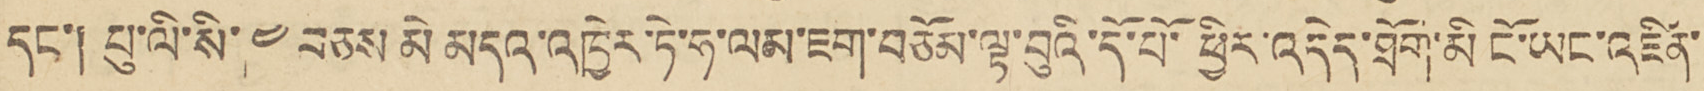དང་། པུ་ལི་སི་ ༤ བཅས མི མདའ་འཁྱེར་ཏེ་ཧ་ལམ་ཇག་བཅོམ་ལྟ་བུའི་དོ་པོ་ཕྱིར་འདེད་ཐོག་མི ངོ་ཡང་འཛིན་
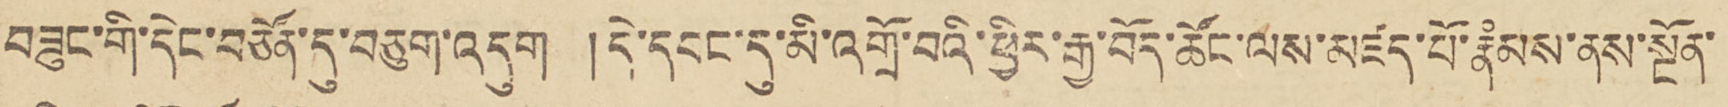བཟུང་གི་དེང་བཙོན་དུ་བཅུག་འདུག །དེ་དབང་དུ་མི་འགྲོ་བའི་རྒྱ་བོད་ཚོང་ལས་མཛད་པོ་རྣཾམས་ནས་སྔོན་
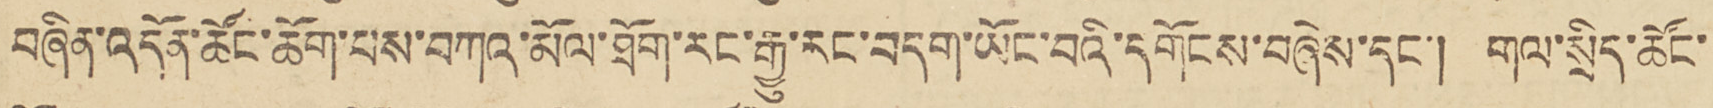བཞིན་འདོན་ཚོང་ཆོག་པས་བཀའ་མོལ་ཐོག་རང་རྒྱུ་རང་བདག་ཡོང་བའི་དགོངས་བཞེས་དང་། གལ་སྲིད་ཚོང་
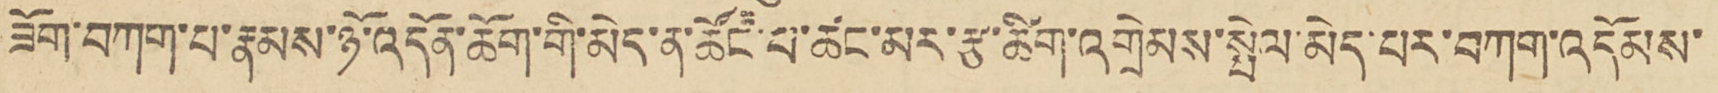ཟོག་བཀག་པ་རྣམས་ཉོ་འདོན་ཆོག་གི་མེད་ན་ཚོང་པ་ཚང་མར་རྩ་ཚིག་འགྲེམས་སྤེལ་མེད་པར་བཀག་འདོམས་
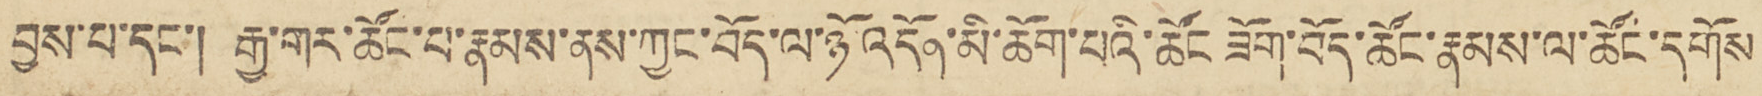བྱས་པ་དང་། རྒྱ་གར་ཚོང་པ་རྣམས་ནས་ཀྱང་བོད་ལ་འདོན་མི་ཆོག་པའི་ཚོང ཟོག་བོད་ཚོང་རྣམས་ལ་ཚོང་དགོས
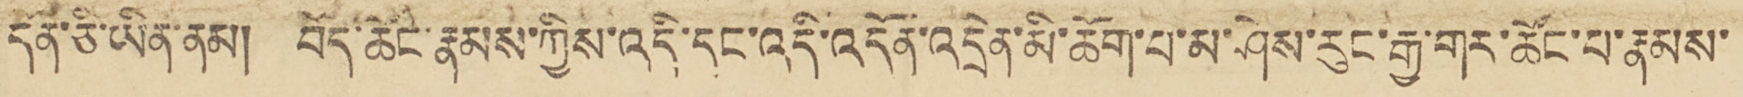དོན་ཅི་ཡིན་ནམ། བོད་ཚོང་རྣམས་ཀྱིས་འདི་དང་འདི་འདོན་འདྲེན་མི་ཆོག་པ་མ་ཤེས་རུང་རྒྱ་གར་ཚོང་པ་རྣམས་
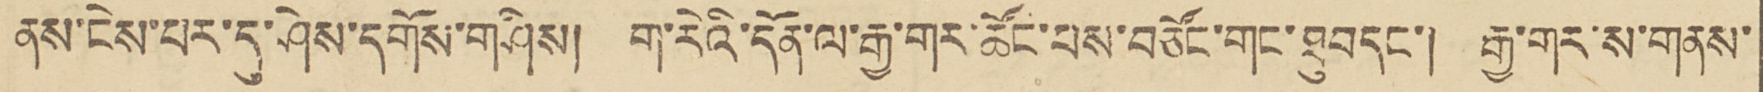ནས་ངེས་པར་དུ་ཤེས་དགོས་གཤིས། ག་རེའི་དོན་ལ་རྒྱ་གར་ཚོང་པས་བཙོང་གང་ཐུབ དང་། རྒྱ་གར་ས་གནས་
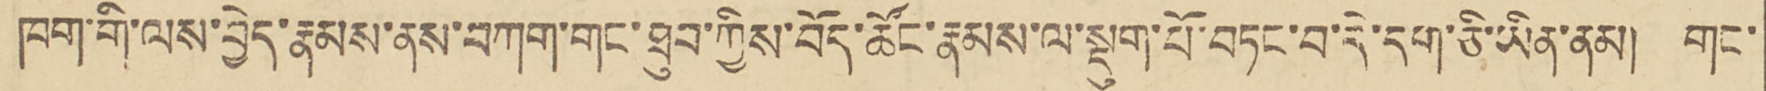ཁག་གི་ལས་བྱེད་རྣམས་ནས་བཀག་གང་ཐུབ་ཀྱིས་བོད་ཚོང་རྣམས་ལ་སྡུག་པོ་བཏང་བ་དེ་དག་ཅི་ཡིན་ནམ། གང་
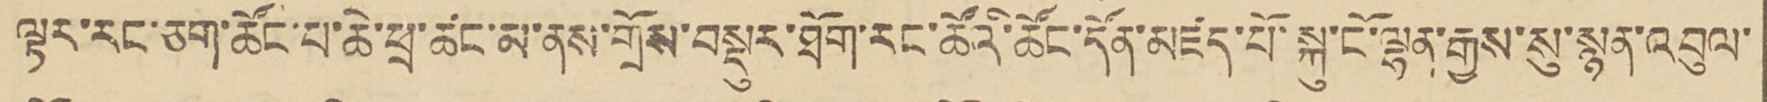ལྟར་རང་ཅག་ཚོང་པ་ཆེ་ཕྲ་ཚང་མ་ནས་གྲོས་བསྡུར་ཐོག་རང་ཚོའི་ཚོང་དོན་མཛད་པོ་སྐུ་ངོ་ལྷན་རྒྱས་སུ་སྙན་འབུལ་
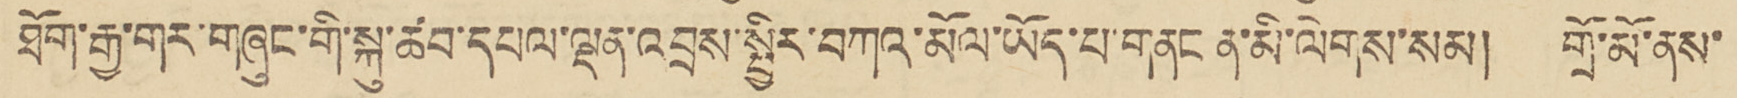ཐོག་རྒྱ་གར་གཞུང་གི་སྐུ་ཚབ་དཔལ་ལྡན་འབྲས་སྤྱིར་བཀའ་མོལ་ཡོད་པ་གནང ན་མི་ལེགས་སམ། གྲོ་མོ་ནས་
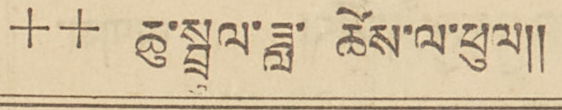++ ཆུ་སྦྲུལ་ཟླ་ཚེས་ལ་ཕུལ།།
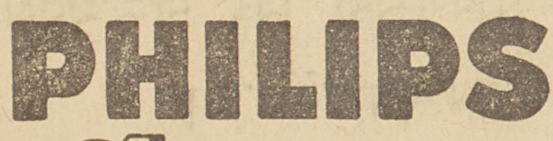PHILIPS
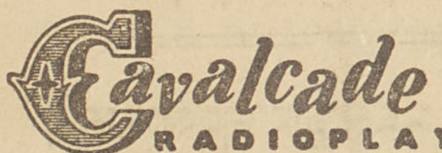Eavalcade
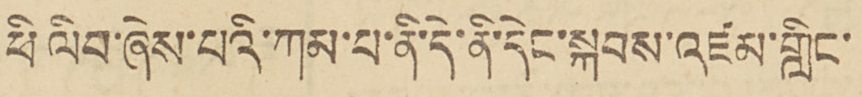ཕི ལིབ་ཞེས་པའི་ཀམ་པ་ནི་དེ་ནི་དེང་སྐབས་འཛམ་གླིང་
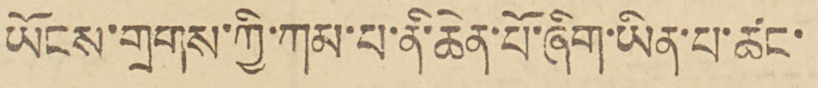ཡོངས་གྲགས་ཀྱི་ཀམ་པ་ནི་ཆེན་པོ་ཞིག་ཡོད་པ་ཚང་
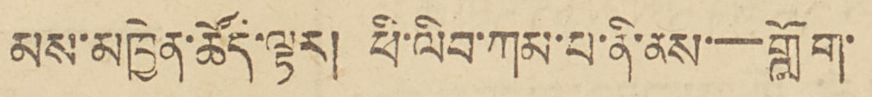མས་མཁྱེན་ཚོད་ལྟར། ཕི་ལིབ་ཀམ་པ་ནི་ནས་—གློག་
